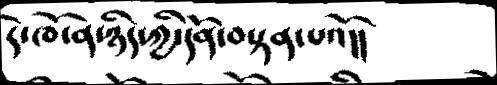དེ་ཁོ་ན་ཉིད་ཀྱི་དོན་བསྟན་པའོ།།
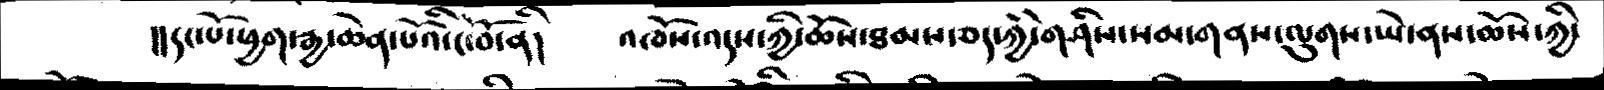།།དང་པོ་ཕྱག་རྒྱ་ཆེན་པོའི་ངོ་བོ་ནི།    འཁོར་འདས་ཀྱི་ཆོས་ཐམས་ཅད་ཀྱི་གཤིས་སམ་གནས་ལུགས་ཡེ་ནས་ཆོས་ཀྱི་
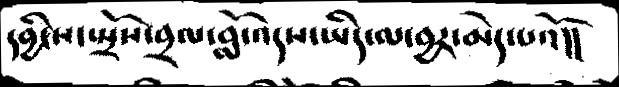དབྱིངས་སྤྲོས་བྲལ་བློ་འདས་ཡིད་ལ་བྱར་མེད་པའོ།།
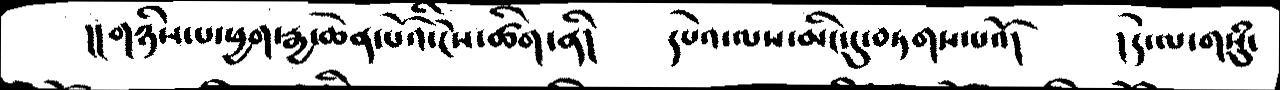།། གཉིས་པ་ཕྱག་རྒྱ་ཆེན་པོའི་ངེས་ཚིག་ནི།     དཔེའ་ལས་མིང་དུ་བཏགས་པའོ།    །དེ་ལ་གསུཾ་
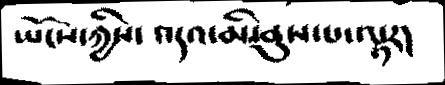ཡོངས་ཀྱིས་ འདའ་མི་ནུས་པ་ལྟར།
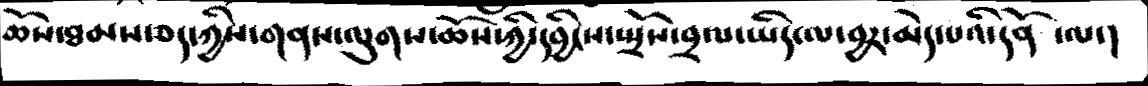ཆོས་ཐམས་ཅད་ཀྱིས་གནས་ལུགས་ཆོས་ཀྱི་དབྱིངས་སྤྲོས་བྲལ་ཡིད་ལ་བྱར་མེད་པའི་དོན་ལ་།
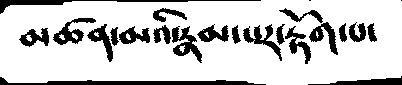མཚན་མའི་རྣམ་པར་རྟོག་པ་
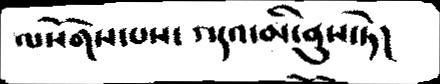ལསོགས་པས་ འདའ་མི་ནུས་ཏེ།
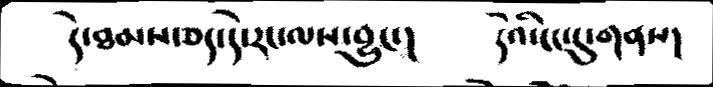དེ་ཐམས་ཅད་དེ་རང་ལས་བྱུང་།          དེའི་ངང་དུ་གནས།
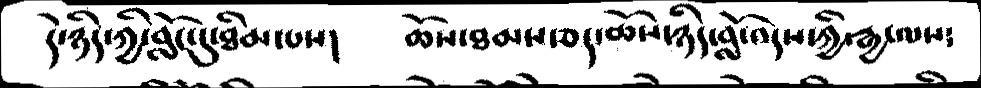དེ་ཉིད་ཀྱི་བློང་དུ་ཐིམ་པས།        ཆོས་ཐམས་ཅད་ཆོས་ཉིད་བློ་འདས་ཀྱི་རྒྱ་ལས༴
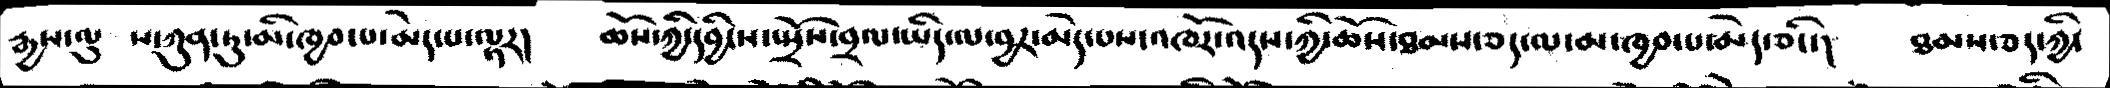རྒྱས་ལུ ས་ཀུན་ཏུ་མི་ཁྱབ་པ་མེད་པ་ལྟར།    ཆོས་ཀྱི་དབྱིངས་སྤྲོས་བྲལ་ཡིད་ལ་བྱར་མེད་པས་འཁོར་འདས་ཀྱི་ཆོས་ཐམས་ཅད་ལ་མ་ཁྱབ་པ་མེད་ཅིང་།   ཐམས་ཅད་ཀྱི་
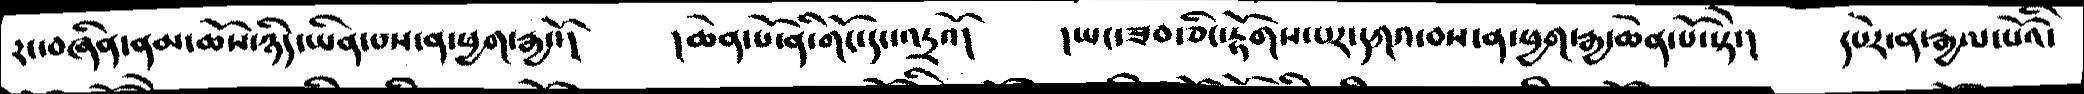རང་བཞིན་ནམ་ཆོས་ཉིད་ཡིན་པས་ན་ཕྱག་རྒྱའོ།    །ཆེན་པོ་ནི་གོང་དང་འདྲའོ།   །ཡང་ཟབ་ཅིང་རྟོགས་པར་དཀའ་བས་ན་ཕྱག་རྒྱ་ཆེན་པོ་སྟེ་།   དཔེར་ན་རྒྱལ་པོའི་
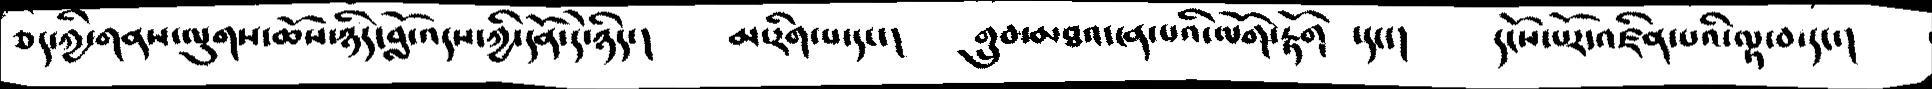ཅད་ཀྱི་གནས་ལུགས་ཆོས་ཉིད་བློ་འདས་ཀྱི་དོན་དེ་ཉིད་།   མ་རིག་པ་དང་།   གྲུབ་མཐའ་ངན་པའི་ལོག་རྟོག་དང་།    དངོས་པོར་འཛིན་པའི་ལྟ་བ་དང་།
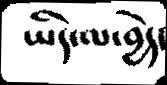ཡིད་ལ་བྱེད་
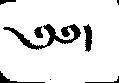༄༅།
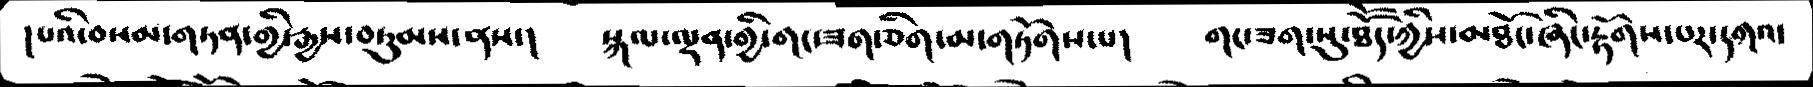།པའི་བསམ་གཏན་གྱི་རྒྱས་བཏུམས་ནས་།   སྐལ་ལྡན་གྱི་གང་ཟག་ཅིག་མ་གཏོགས་པ།   གང་ཟག་སུ་ཐཽད་ཀྱིས་མཐོང་ཞིང་རྟོགས་པར་དཀའ་
